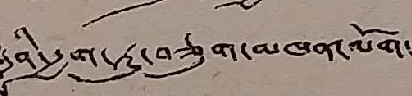་ཤི་རྒྱག་ཏུ་བཅུག་མཁན་ལོག་
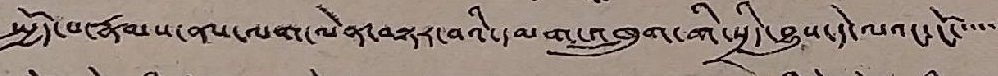སྤྱོད་པ་རྣམས་ནས་ལག་ལེན་བསྟར་བའི་དམག་འཁྲུག་གི་སྲིད་བྱུས་དེ་ལའང་ངོ་་་་་་
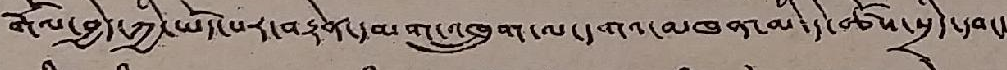རྒོལ་བྱེད་ཀྱི་ཡོད་པར་བརྟེན་དམག་འཁྲུག་ལ་དགའ་མཁན་མི་དེ་ཚོས་སྲིད་དབང་
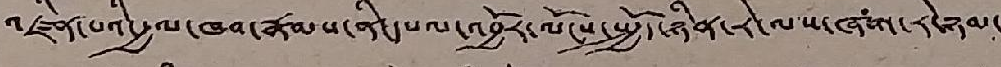འཛིན་པའི་རྒྱལ་ཁབ་རྣམས་ནི་དཔལ་འབྱོར་ལོངས་སྤྱོད་ཉིན་རེ་ལས་ཞག་རེ་ཉམ་
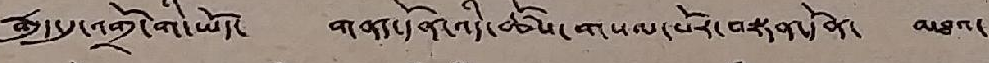རྒུད་དུ་འགྲོ་གི་ཡོད་ གནད་དོན་འདི་ཚོས་གསལ་པོར་བསྟན་དོན་ མཐའ་
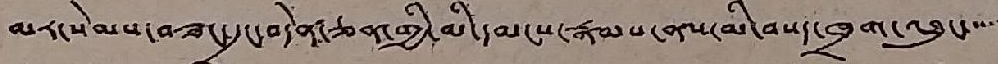མར་སེམས་བཟང་དྲང་བདེན་ཅན་གྱི་མི་དམངས་རྣམས་ནས་མི་བསད་ཁྲག་འཐུང་་་་་
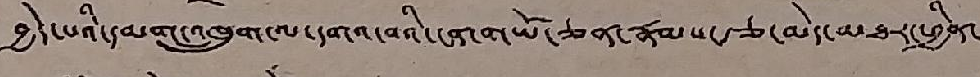བྱེད་པའི་དམག་འཁྲུག་ལ་དགའ་བའི་ངན་ག་ཡོ་ཅན་རྣམས་རྩ་མེད་མཐར་ཕྱིན་
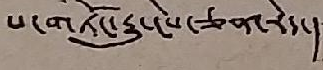པ་གཏོང་རྒྱུ་ངེས་ཅན་རེད་།
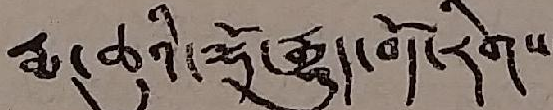རྨ་ཆུའི་ལྷོ་རྒྱུད་བོད་རིགས་
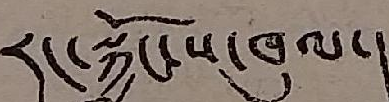རང་སྐྱོང་ས་ཁུལ་།
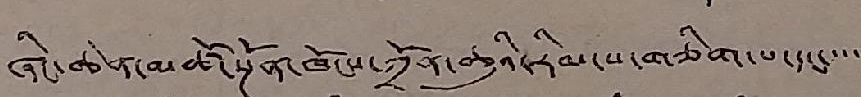ཞིང་ཆེན་མཚོ་སྔོན་ཁོངས་ཀྲོན་ཆུའི་རིམ་པ་གཅིག་པ་དང་་་་་
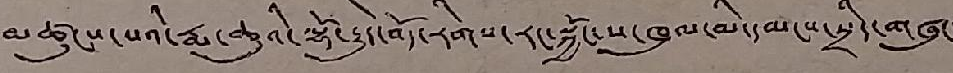མཚུངས་པའི་རྨ་ཆུའི་ལྷོ་རྒྱུད་བོད་རིགས་རང་སྐྱོང་ས་ཁུལ་མི་དམངས་སྲིད་གཞུང་
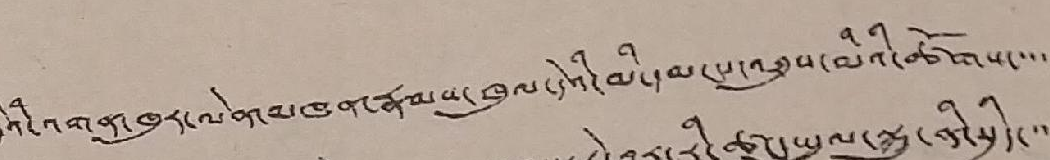དེའི་འགན་ཁུར་ལེན་མཁན་རྣམས་ཁུལ་དེའི་མི་དམངས་འཐུས་མིའི་ཚོགས་་་་
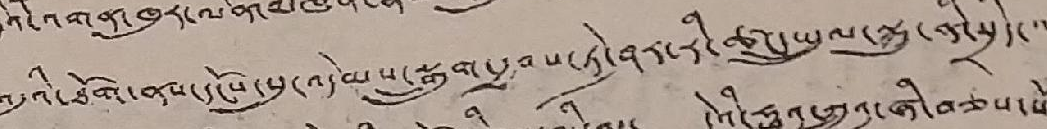འདུའི་ཐོག་ནས་དངོས་སུ་འདེམས་སྒྲུབ་རྒྱབ་པ་ཏེ་ཤར་རི་ཚང་སྤྲུལ་སྐུ་ནི་སྲིད་་་
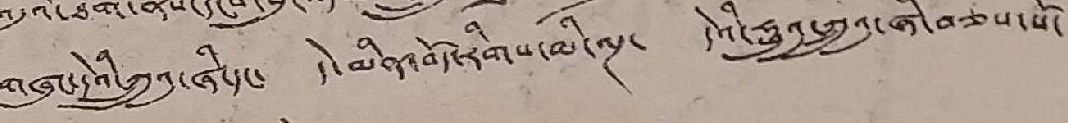གཞུང་དེའི་ཀྲུའུ་ཞི་དང་ དེ་མིན་བོད་རིགས་མི་ལྔ་ དེའི་ཧྥུའུ་ཀྲུའུ་ཞི་བཅས་སོ
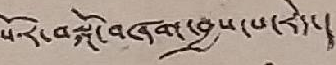སོར་བསྐོ་བཞག་བྱས་པ་རེད་།
